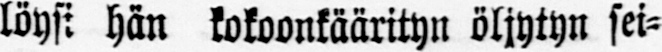löysi hän kokoonkäärityn öljytyn sei-
